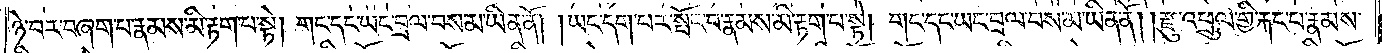ཉེ་བར་བཞག་པ་རྣམས་མི་རྟག་པ་སྟེ། གང་དང་ཡང་བྲལ་བས་མ་ཡིན་ནོ། །ཡང་དག་པར་སྤོང་བ་རྣམས་མི་རྟག་པ་སྟེ། གང་དང་ཡང་བྲལ་བས་མ་ཡིན་ནོ། །རྫུ་འཕྲུལ་གྱི་རྐང་པ་རྣམས་
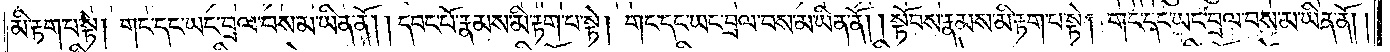མི་རྟག་པ་སྟེ། གང་དང་ཡང་བྲལ་བས་མ་ཡིན་ནོ། །དབང་པོ་རྣམས་མི་རྟག་པ་སྟེ། གང་དང་ཡང་བྲལ་བས་མ་ཡིན་ནོ། །སྟོབས་རྣམས་མི་རྟག་པ་སྟེ། གང་དང་ཡང་བྲལ་བས་མ་ཡིན་ནོ། །
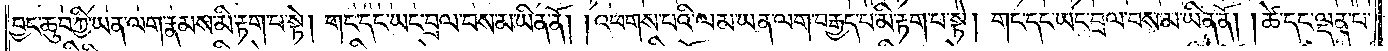བྱང་ཆུབ་ཀྱི་ཡན་ལག་རྣམས་མི་རྟག་པ་སྟེ། གང་དང་ཡང་བྲལ་བས་མ་ཡིན་ནོ། །འཕགས་པའི་ལམ་ཡན་ལག་བརྒྱད་པ་མི་རྟག་པ་སྟེ། གང་དང་ཡང་བྲལ་བས་མ་ཡིན་ནོ། །ཚེ་དང་ལྡན་པ་
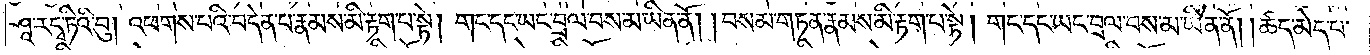ཤཱ་ར་དྭ་ཏིའི་བུ། འཕགས་པའི་བདེན་པ་རྣམས་མི་རྟག་པ་སྟེ། གང་དང་ཡང་བྲལ་བས་མ་ཡིན་ནོ། །བསམ་གཏན་རྣམས་མི་རྟག་པ་སྟེ། གང་དང་ཡང་བྲལ་བས་མ་ཡིན་ནོ། །ཚད་མེད་པ་
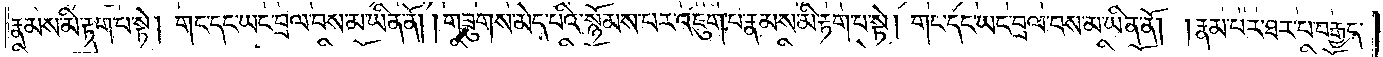རྣམས་མི་རྟག་པ་སྟེ། གང་དང་ཡང་བྲལ་བས་མ་ཡིན་ནོ། །གཟུགས་མེད་པའི་སྙོམས་པར་འཇུག་པ་རྣམས་མི་རྟག་པ་སྟེ། གང་དང་ཡང་བྲལ་བས་མ་ཡིན་ནོ། །རྣམ་པར་ཐར་པ་བརྒྱད་
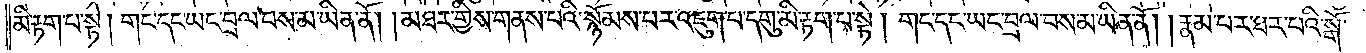མི་རྟག་པ་སྟེ། གང་དང་ཡང་བྲལ་བས་མ་ཡིན་ནོ། །མཐར་གྱིས་གནས་པའི་སྙོམས་པར་འཇུག་པ་དགུ་མི་རྟག་པ་སྟེ། གང་དང་ཡང་བྲལ་བས་མ་ཡིན་ནོ། །རྣམ་པར་ཐར་པའི་སྒོ་
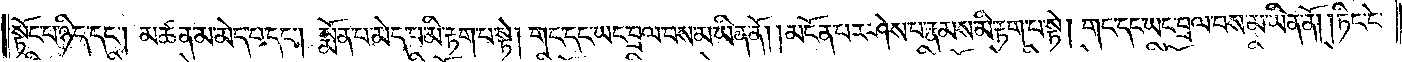སྟོང་པ་ཉིད་དང༌། མཚན་མ་མེད་པ་དང༌། སྨོན་པ་མེད་པ་མི་རྟག་པ་སྟེ། གང་དང་ཡང་བྲལ་བས་མ་ཡིན་ནོ། །མངོན་པར་ཤེས་པ་རྣམས་མི་རྟག་པ་སྟེ། གང་དང་ཡང་བྲལ་བས་མ་ཡིན་ནོ། །ཏིང་ངེ་
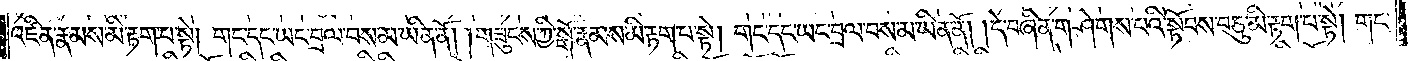འཛིན་རྣམས་མི་རྟག་པ་སྟེ། གང་དང་ཡང་བྲལ་བས་མ་ཡིན་ནོ། །གཟུངས་ཀྱི་སྒོ་རྣམས་མི་རྟག་པ་སྟེ། གང་དང་ཡང་བྲལ་བས་མ་ཡིན་ནོ། དེ་བཞིན་གཤེགས་པའི་སྟོབས་བཅུ་མི་རྟག་པ་སྟེ། གང་
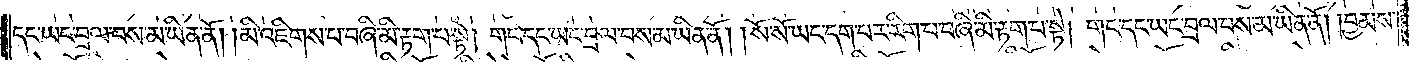དང་ཡང་བྲལ་བས་མ་ཡིན་ནོ། །མི་འཇིགས་པ་བཞི་མི་རྟག་པ་སྟེ། གང་དང་ཡང་བྲལ་བས་མ་ཡིན་ནོ། །སོ་སོ་ཡང་དག་པར་རིག་པ་བཞི་མི་རྟག་པ་སྟེ། གང་དང་ཡང་བྲལ་བས་མ་ཡིན་ནོ། །བྱམས་
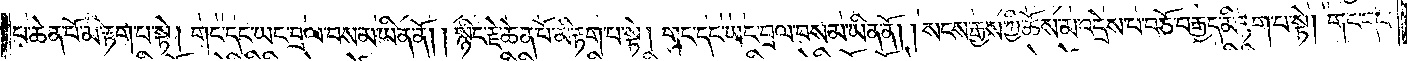པ་ཆེན་པོ་མི་རྟག་པ་སྟེ། གང་དང་ཡང་བྲལ་བས་མ་ཡིན་ནོ། །སྙིང་རྗེ་ཆེན་པོ་མི་རྟག་པ་སྟེ། གང་དང་ཡང་བྲལ་བས་མ་ཡིན་ནོ། །སངས་རྒྱས་ཀྱི་ཆོས་མ་འདྲེས་པ་བཅོ་བརྒྱད་མི་རྟག་པ་སྟེ། གང་དང་
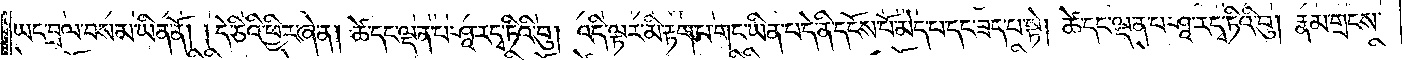ཡང་བྲལ་བས་མ་ཡིན་ནོ། །དེ་ཅིའི་ཕྱིར་ཞེ་ན། ཚེ་དང་ལྡན་པ་ཤཱ་ར་དྭ་ཏིའི་བུ། འདི་ལྟར་མི་རྟག་པ་གང་ཡིན་པ་དེ་ནི་དངོས་པོ་མེད་པ་དང་ཟད་པ་སྟེ། ཚེ་དང་ལྡན་པ་ཤཱ་ར་དྭ་ཏིའི་བུ། རྣམ་གྲངས་
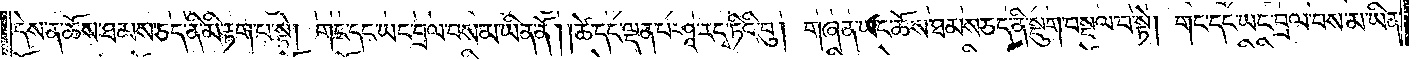དེས་ན་ཆོས་ཐམས་ཅད་ནི་མི་རྟག་པ་སྟེ། གང་དང་ཡང་བྲལ་བས་མ་ཡིན་ནོ། །ཚེ་དང་ལྡན་པ་ཤཱ་ར་དྭ་ཏིའི་བུ། གཞན་ཡང་ཆོས་ཐམས་ཅད་ནི་སྡུག་བསྔལ་བ་སྟེ། གང་དང་ཡང་བྲལ་བས་མ་ཡིན་
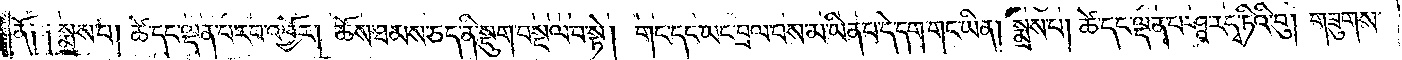ནོ༑ ༑སྨྲས་པ། ཚེ་དང་ལྡན་པ་རབ་འབྱོར། ཆོས་ཐམས་ཅད་ནི་སྡུག་བསྔལ་བ་སྟེ། གང་དང་ཡང་བྲལ་བས་མ་ཡིན་པ་དེ་དག་གང་ཡིན་སྨྲས་པ། ཚེ་དང་ལྡན་པ་ཤཱ་ར་དྭ་ཏིའི་བུ། གཟུགས་
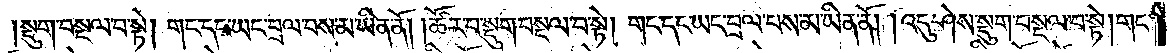སྡུག་བསྔལ་བ་སྟེ། གང་དང་ཡང་བྲལ་བས་མ་ཡིན་ནོ། །ཚོར་བ་སྡུག་བསྔལ་བ་སྟེ། གང་དང་ཡང་བྲལ་བས་མ་ཡིན་ནོ། །འདུ་ཤེས་སྡུག་བསྔལ་བ་སྟེ། གང་
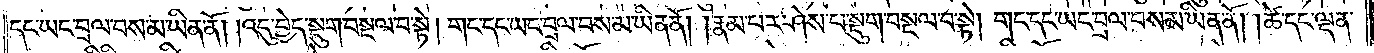དང་ཡང་བྲལ་བས་མ་ཡིན་ནོ། །འདུ་བྱེད་སྡུག་བསྔལ་བ་སྟེ། གང་དང་ཡང་བྲལ་བས་མ་ཡིན་ནོ། །རྣམ་པར་ཤེས་པ་སྡུག་བསྔལ་བ་སྟེ། གང་དང་ཡང་བྲལ་བས་མ་ཡིན་ནོ། །ཚེ་དང་ལྡན་
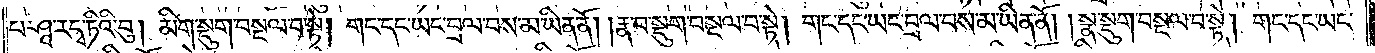པ་ཤཱ་ར་དྭ་ཏིའི་བུ། མིག་སྡུག་བསྔལ་བ་སྟེ། གང་དང་ཡང་བྲལ་བས་མ་ཡིན་ནོ། །རྣ་བ་སྡུག་བསྔལ་བ་སྟེ། གང་དང་ཡང་བྲལ་བས་མ་ཡིན་ནོ། །སྣ་སྡུག་བསྔལ་བ་སྟེ། གང་དང་ཡང་
